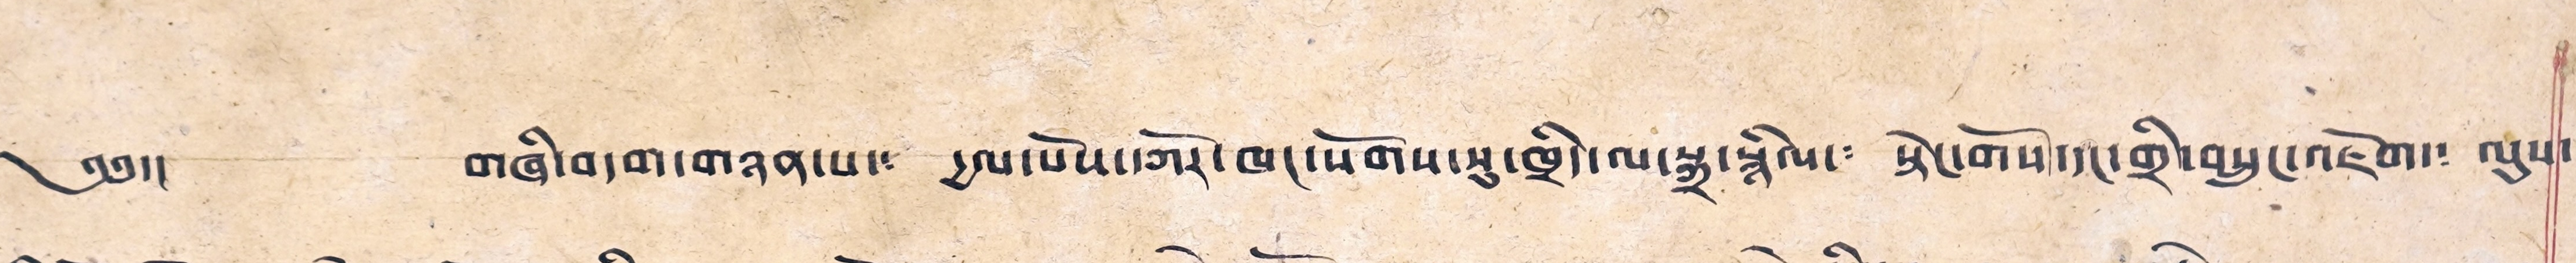༄༅།། གཞི་བདག་གཉན་པ་༴ དྱལ་པོས་དཀོར་ཁང་སོགས་སུ་ཁྲིད་ལ་སྐྲ་སྙིལ་༴ སྟེང་གོས་དང་གྲི་བསྲུང་འཇོག་༴ ལུས་
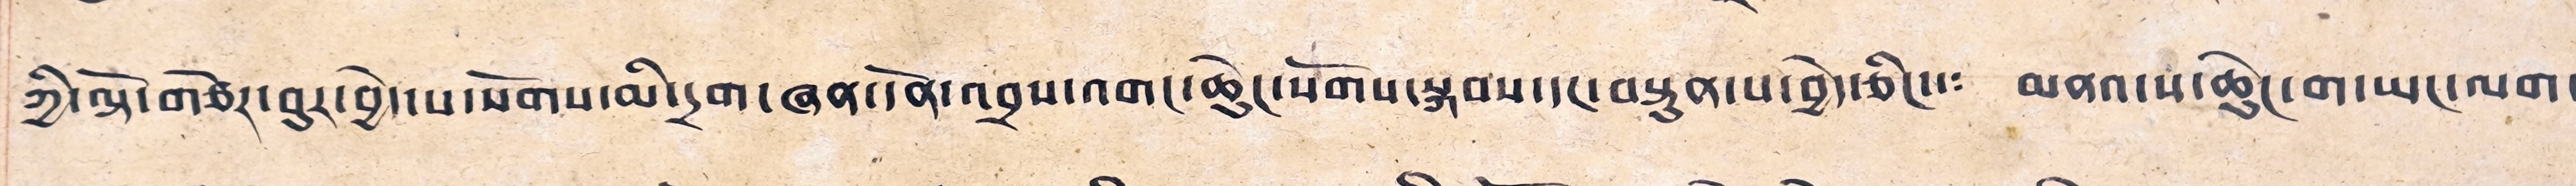ཀྱི་ལྟོ་གཅོར་བུར་བྱེད་པ་སོགས་མི་དྲག་ཞན་དོན་འབྲས་འགང་ཆེུང་སོགས་སྐབས་དང་བསྟུན་པ་བྱེད་ཅིང་༴ མནའ་ས་ཆེུང་ག་ཡང་ལག་
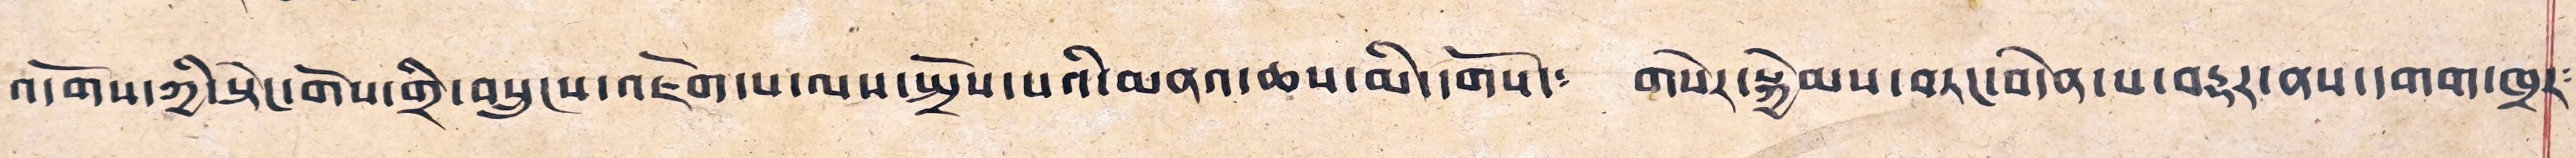འདོགས་ཀྱི་སྟེང་གོས་གྲི་བསྲུངས་འཇེག་པ་ལས་སྤྲོས་པའི་མནའ་ཆས་མི་དགོས་༴ གསེར་སྐྱེམས་བཏང་བདེན་པ་བརྡར་ནས་དགག་ཁྲར༴
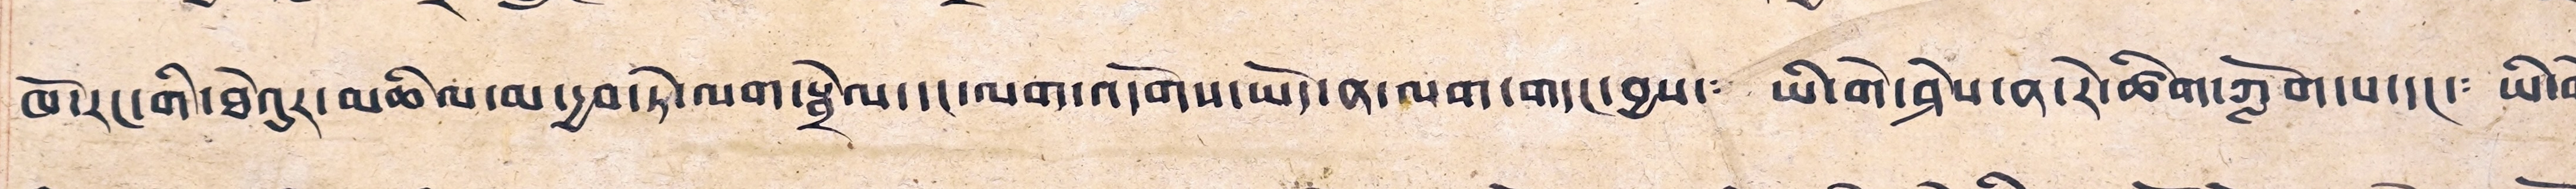ཁོ་རང་གི་ཐེའུར་མཆིལ་མ་དྱབ་ཏེ་ལག་སྦྲེལ་དང་ལག་འདོགས་ཡོད་ན་ལག་གདང་བྱས་༴ ཡི་གེ་ཤེས་ན་རེ་ཚིག་ཀློག་པ་དང་། ཡི་གེ༴
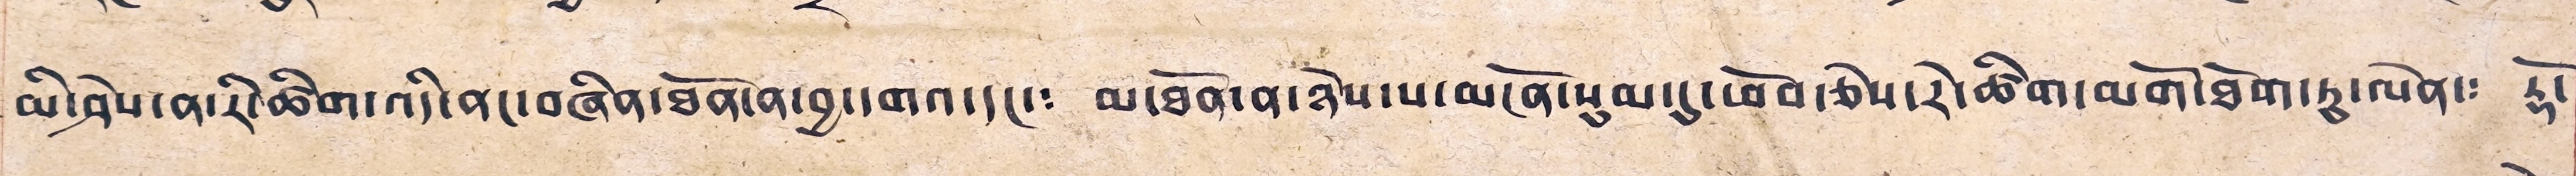མི་ཤེས་ན་རི་ཚིག་འདི་ནང་བཞིན་ཐོན་ན་བྱ་དགའ་དང་༴ མ་ཐོན་ན་ཉེས་པ་མངོན་སུམ་དུ་ཕོབ་ཅེས་རེ་ཚིག་མགོ་ཐོག་ཏུ་ལེན་༴ རྡོ་
